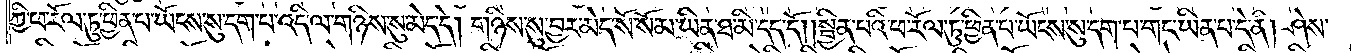ཀྱི་ཕ་རོལ་ཏུ་ཕྱིན་པ་ཡོངས་སུ་དག་པ་འདི་ལ་གཉིས་སུ་མེད་དེ། གཉིས་སུ་བྱར་མེད་སོ་སོ་མ་ཡིན་ཐ་མི་དད་དོ། །སྦྱིན་པའི་ཕ་རོལ་ཏུ་ཕྱིན་པ་ཡོངས་སུ་དག་པ་གང་ཡིན་པ་དེ་ནི། ཤེས་
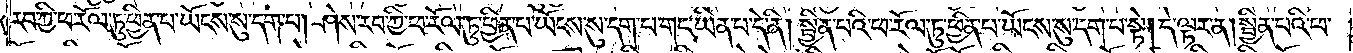རབ་ཀྱི་ཕ་རོལ་ཏུ་ཕྱིན་པ་ཡོངས་སུ་དག་པ། ཤེས་རབ་ཀྱི་ཕ་རོལ་ཏུ་ཕྱིན་པ་ཡོངས་སུ་དག་པ་གང་ཡིན་པ་དེ་ནི། སྦྱིན་པའི་ཕ་རོལ་ཏུ་ཕྱིན་པ་ཡོངས་སུ་དག་པ་སྟེ། དེ་ལྟར་ན། སྦྱིན་པའི་ཕ་
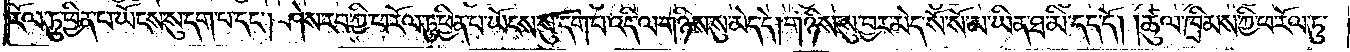རོལ་ཏུ་ཕྱིན་པ་ཡོངས་སུ་དག་པ་དང༌། ཤེས་རབ་ཀྱི་ཕ་རོལ་ཏུ་ཕྱིན་པ་ཡོངས་སུ་དག་པ་འདི་ལ་གཉིས་སུ་མེད་དེ། གཉིས་སུ་བྱར་མེད་སོ་སོ་མ་ཡིན་ཐ་མི་དད་དོ། །ཚུལ་ཁྲིམས་ཀྱི་ཕ་རོལ་ཏུ་
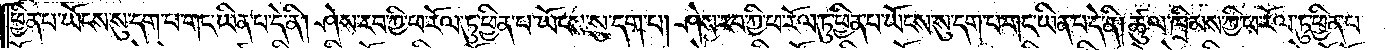ཕྱིན་པ་ཡོངས་སུ་དག་པ་གང་ཡིན་པ་དེ་ནི། ཤེས་རབ་ཀྱི་ཕ་རོལ་ཏུ་ཕྱིན་པ་ཡོངས་སུ་དག་པ། ཤེས་རབ་ཀྱི་ཕ་རོལ་ཏུ་ཕྱིན་པ་ཡོངས་སུ་དག་པ་གང་ཡིན་པ་དེ་ནི། ཚུལ་ཁྲིམས་ཀྱི་ཕ་རོལ་ཏུ་ཕྱིན་པ་
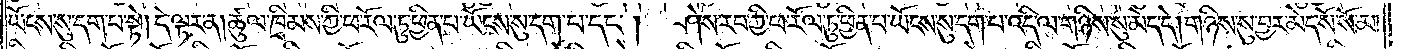ཡོངས་སུ་དག་པ་སྟེ། དེ་ལྟར་ན། ཚུལ་ཁྲིམས་ཀྱི་ཕ་རོལ་ཏུ་ཕྱིན་པ་ཡོངས་སུ་དག་པ་དང༌། ཤེས་རབ་ཀྱི་ཕ་རོལ་ཏུ་ཕྱིན་པ་ཡོངས་སུ་དག་པ་འདི་ལ་གཉིས་སུ་མེད་དེ། གཉིས་སུ་བྱར་མེད་སོ་སོ་མ་
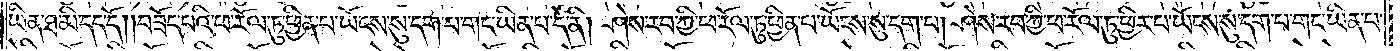ཡིན་ཐ་མི་དད་དོ། །བཟོད་པའི་ཕ་རོལ་ཏུ་ཕྱིན་པ་ཡོངས་སུ་དག་པ་གང་ཡིན་པ་དེ་ནི། ཤེས་རབ་ཀྱི་ཕ་རོལ་ཏུ་ཕྱིན་པ་ཡོངས་སུ་དག་པ། ཤེས་རབ་ཀྱི་ཕ་རོལ་ཏུ་ཕྱིན་པ་ཡོངས་སུ་དག་པ་གང་ཡིན་པ་
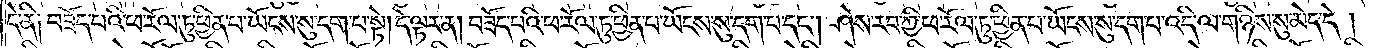དེ་ནི༑ བཟོད་པའི་ཕ་རོལ་ཏུ་ཕྱིན་པ་ཡོངས་སུ་དག་པ་སྟེ། དེ་ལྟར་ན། བཟོད་པའི་ཕ་རོལ་ཏུ་ཕྱིན་པ་ཡོངས་སུ་དག་པ་དང༌། ཤེས་རབ་ཀྱི་ཕ་རོལ་ཏུ་ཕྱིན་པ་ཡོངས་སུ་དག་པ་འདི་ལ་གཉིས་སུ་མེད་དེ།
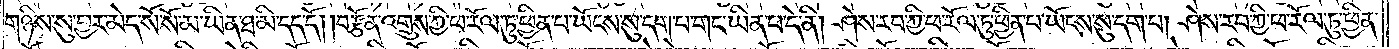གཉིས་སུ་བྱར་མེད་སོ་སོ་མ་ཡིན་ཐ་མི་དད་དོ། །བརྩོན་འགྲུས་ཀྱི་ཕ་རོལ་ཏུ་ཕྱིན་པ་ཡོངས་སུ་དག་པ་གང་ཡིན་པ་དེ་ནི། ཤེས་རབ་ཀྱི་ཕ་རོལ་ཏུ་ཕྱིན་པ་ཡོངས་སུ་དག་པ། ཤེས་རབ་ཀྱི་ཕ་རོལ་ཏུ་ཕྱིན་
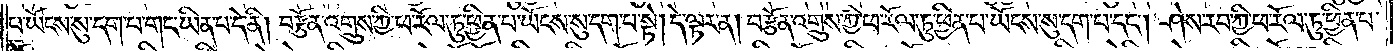པ་ཡོངས་སུ་དག་པ་གང་ཡིན་པ་དེ་ནི། བརྩོན་འགྲུས་ཀྱི་ཕ་རོལ་ཏུ་ཕྱིན་པ་ཡོངས་སུ་དག་པ་སྟེ། དེ་ལྟར་ན། བརྩོན་འགྲུས་ཀྱི་ཕ་རོལ་ཏུ་ཕྱིན་པ་ཡོངས་སུ་དག་པ་དང༌། ཤེས་རབ་ཀྱི་ཕ་རོལ་ཏུ་ཕྱིན་པ་
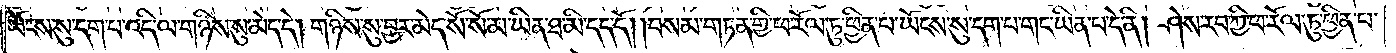ཡོངས་སུ་དག་པ་འདི་ལ་གཉིས་སུ་མེད་དེ། གཉིས་སུ་བྱར་མེད་སོ་སོ་མ་ཡིན་ཐ་མི་དད་དོ། །བསམ་གཏན་གྱི་ཕ་རོལ་ཏུ་ཕྱིན་པ་ཡོངས་སུ་དག་པ་གང་ཡིན་པ་དེ་ནི། ཤེས་རབ་ཀྱི་ཕ་རོལ་ཏུ་ཕྱིན་པ་
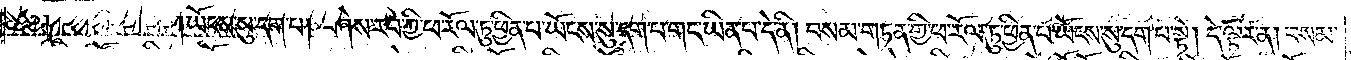ཡོངས་སུ་དག་པ། ཤེས་རབ་ཀྱི་ཕ་རོལ་ཏུ་ཕྱིན་པ་ཡོངས་སུ་དག་པ་གང་ཡིན་པ་དེ་ནི། བསམ་གཏན་གྱི་ཕ་རོལ་ཏུ་ཕྱིན་པ་ཡོངས་སུ་དག་པ་སྟེ། དེ་ལྟར་ན། བསམ་
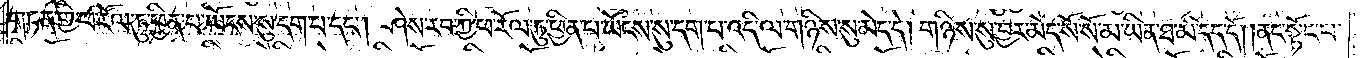གཏན་གྱི་ཕ་རོལ་ཏུ་ཕྱིན་པ་ཡོངས་སུ་དག་པ་དང༌། ཤེས་རབ་ཀྱི་ཕ་རོལ་ཏུ་ཕྱིན་པ་ཡོངས་སུ་དག་པ་འདི་ལ་གཉིས་སུ་མེད་དེ། གཉིས་སུ་བྱར་མེད་སོ་སོ་མ་ཡིན་ཐ་མི་དད་དོ། །ནང་སྟོང་པ་
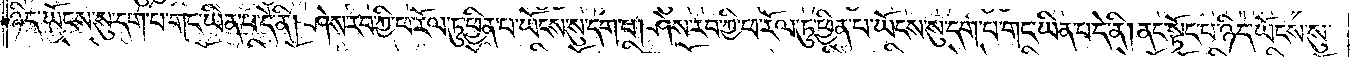ཉིད་ཡོངས་སུ་དག་པ་གང་ཡིན་པ་དེ་ནི། ཤེས་རབ་ཀྱི་ཕ་རོལ་ཏུ་ཕྱིན་པ་ཡོངས་སུ་དག་པ། ཤེས་རབ་ཀྱི་ཕ་རོལ་ཏུ་ཕྱིན་པ་ཡོངས་སུ་དག་པ་གང་ཡིན་པ་དེ་ནི། ནང་སྟོང་པ་ཉིད་ཡོངས་སུ་
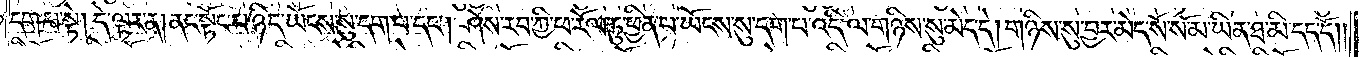དག་པ་སྟེ། དེ་ལྟར་ན། ནང་སྟོང་པ་ཉིད་ཡོངས་སུ་དག་པ་དང༌། ཤེས་རབ་ཀྱི་ཕ་རོལ་ཏུ་ཕྱིན་པ་ཡོངས་སུ་དག་པ་འདི་ལ་གཉིས་སུ་མེད་དེ། གཉིས་སུ་བྱར་མེད་སོ་སོ་མ་ཡིན་ཐ་མི་དད་དོ། །
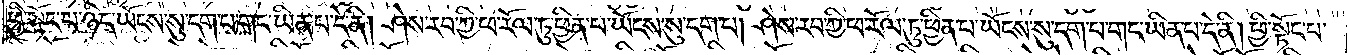ཕྱི་སྟོང་པ་ཉིད་ཡོངས་སུ་དག་པ་གང་ཡིན་པ་དེ་ནི། ཤེས་རབ་ཀྱི་ཕ་རོལ་ཏུ་ཕྱིན་པ་ཡོངས་སུ་དག་པ། ཤེས་རབ་ཀྱི་ཕ་རོལ་ཏུ་ཕྱིན་པ་ཡོངས་སུ་དག་པ་གང་ཡིན་པ་དེ་ནི། ཕྱི་སྟོང་པ་
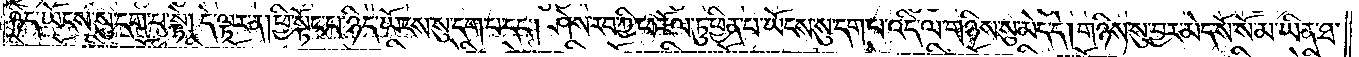ཉིད་ཡོངས་སུ་དག་པ་སྟེ། དེ་ལྟར་ན། ཕྱི་སྟོང་པ་ཉིད་ཡོངས་སུ་དག་པ་དང༌། ཤེས་རབ་ཀྱི་ཕ་རོལ་ཏུ་ཕྱིན་པ་ཡོངས་སུ་དག་པ་འདི་ལ་གཉིས་སུ་མེད་དེ། གཉིས་སུ་བྱར་མེད་སོ་སོ་མ་ཡིན་ཐ་
